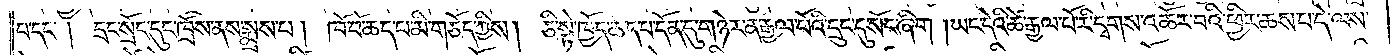པ་དང༌། དྲང་སྲོང་དུང་ཁྲོས་ནས་སྨྲས་པ། ཁོ་བོ་ཆད་པ་མི་གཅོད་ཀྱིས། ཅི་སྟེ་ཁྱོད་ཆད་པ་དོན་དུ་གཉེར་ན་རྒྱལ་པོའི་དྲུང་དུ་སོང་ཞིག །ཡང་དེའི་ཚེ་རྒྱལ་པོ་རི་དྭགས་འཆོར་བའི་ཕྱིར་ཆས་པ་དེ་ལས་
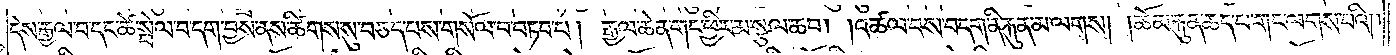དེས་རྒྱལ་བ་དང་ཚེ་སྤེལ་བདག་བྱས་ནས་ཚིགས་སུ་བཅད་པས་གསོལ་བ་བཏབ་པ། རྒྱལ་ཆེན་གང་ཕྱིར་མ་སྩལ་ཆབ། །འཚལ་བས་བདག་ནི་རྐུན་མ་ལགས། །ཆོམ་རྐུན་ཆད་པ་གང་ལགས་པའི༎
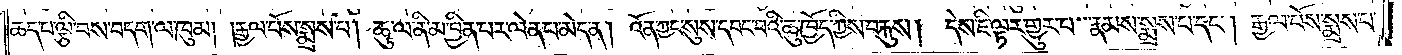ཆད་པ་ལྕི་བས་བདག་ལ་ཁུམ། །རྒྱལ་པོས་སྨྲས་པ། ཆུ་ལ་ནི་མ་བྱིན་པར་ལེན་པ་མེད་ན། འོན་ཀྱང་སུས་དབང་བའི་ཆུ་ཁྱོད་ཀྱིས་བརྐུས། དེས་ཇི་ལྟར་གྱུར་པ་རྣམས་སྨྲས་པ་དང༌། རྒྱལ་པོས་སྨྲས་པ་
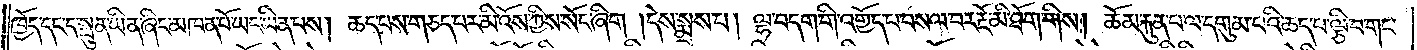ཁྱོད་དང་ང་སྤུན་ཡིན་ཞིང་མཁན་པོ་ཡང་ཡིན་པས། ཆད་པས་གཅད་པར་མི་འོས་ཀྱིས་སོང་ཞིག །དེས་སྨྲས་པ། ལྷ་བདག་གི་འགྱོད་པ་བསལ་བར་རྔོ་མི་ཐོག་གིས། ཆོམ་རྐུན་པ་ལ་དགུམ་པའི་ཆད་པ་ལྕི་བ་གང་
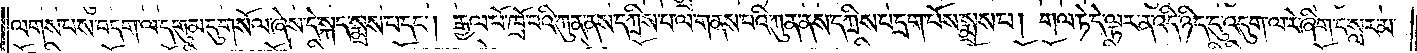ལགས་པས་བདག་ལ་དགུམ་དུ་གསོལ་ཞེས་དེ་སྐད་སྨྲས་པ་དང༌། རྒྱལ་པོ་ཁྲོ་བའི་ཀུན་ནས་དཀྲིས་པ་ལ་གནས་པའི་ཀུན་ནས་དཀྲིས་པ་དྲག་པོས་སྨྲས་པ། གལ་ཏེ་དེ་ལྟར་ན་འདི་ཉིད་དུ་འདུག་ལ་རེ་ཞིག་ང་སླར་མ་
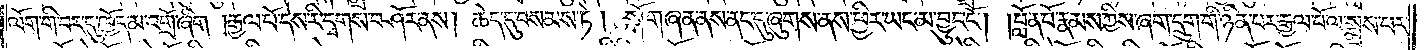ལོག་གི་བར་དུ་ཁྱོད་མ་འགྲོ་ཞིག །རྒྱལ་པོ་དེས་རི་དྭགས་བཤོར་ནས། ཆེད་དུ་བསམས་ཏེ། སྒོ་གཞན་ནས་ནང་དུ་ཞུགས་ནས་ཕྱིར་ཡང་མ་བྱུང་ངོ༌། །བློན་པོ་རྣམས་ཀྱིས་ཞག་དྲུག་གི་ཉིན་པར་རྒྱལ་པོ་ལ་སྨྲས་པར་
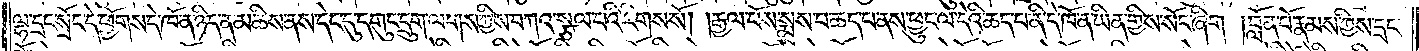ལྷ་དྲང་སྲོང་དེ་ཕྱོགས་དེ་ཁོ་ན་ཉིད་ན་མཆིས་ནས་དེང་དུ་དགུང་དྲུག་ལགས་ཀྱིས་བཀའ་སྩལ་པའི་རིགས་སོ། །རྒྱལ་པོས་སྨྲས་པ་ཆད་པ་ནས་ཕྱུང་ལ་དེའི་ཆད་པ་ནི་དེ་ཁོ་ན་ཡིན་གྱིས་སོང་ཞིག །བློན་པོ་རྣམས་ཀྱིས་དྲང་
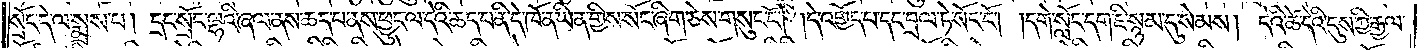སྲོང་དེ་ལ་སྨྲས་པ། དྲང་སྲོང་ལྷའི་ཞལ་ནས་ཆད་པ་ནས་ཕྱུང་ལ་དེའི་ཆད་པ་ནི་དེ་ཁོ་ན་ཡིན་གྱིས་སོང་ཞིག་ཅེས་གསུང་ངོ༌། །དེ་འགྱོད་པ་དང་བྲལ་ཏེ་སོང་ངོ༌། །དགེ་སློང་དག་ཇི་སྙམ་དུ་སེམས། དེའི་ཚེ་དེའི་དུས་ཀྱི་རྒྱལ་
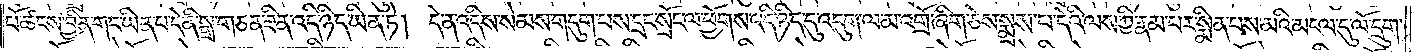པོ་ཚངས་བྱིན་གང་ཡིན་པ་དེ་ནི་སྒྲ་གཅན་ཟིན་འདི་ཉིད་ཡིན་ཏེ། དེ་ན་འདིས་སེམས་གདུག་པས་དྲང་སྲོང་ལ་ཕྱོགས་འདི་ཉིད་དུ་འདུག་ལ་མ་འགྲོ་ཞིག་ཅེས་སྨྲས་པ་དེའི་ལས་ཀྱི་རྣམ་པར་སྨིན་པས་མའི་མངལ་དུ་ལོ་དྲུག་
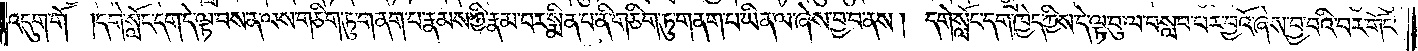འདུག་གོ །དགེ་སློང་དག་དེ་ལྟ་བས་ན་ལས་གཅིག་ཏུ་གནག་པ་རྣམས་ཀྱི་རྣམ་པར་སྨིན་པ་ནི་གཅིག་ཏུ་གནག་པ་ཡིན་ལ་ཞེས་བྱ་བ་ནས། དགེ་སློང་དག་ཁྱེད་ཀྱིས་དེ་ལྟ་བུ་ལ་བསླབ་པར་བྱའོ་ཞེས་བྱ་བའི་བར་གོང་
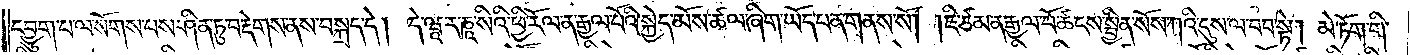དབྱུག་པ་ལ་སོགས་པས་ཤིན་ཏུ་བརྡེགས་ནས་བསྐྲད་དེ། དེ་ཝཱ་ར་ཎཱ་སིའི་ཕྱི་རོལ་ན་རྒྱལ་པོའི་སྐྱེད་མོས་ཚལ་ཞིག་ཡོད་པ་ན་གནས་སོ། །ཇི་ཙམ་ན་རྒྱལ་པོ་ཚངས་སྦྱིན་སོས་ཀའི་དུས་ལ་བབ་སྟེ། མེ་ཏོག་གི་
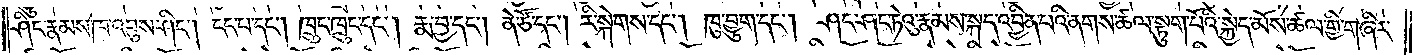ཤིང་རྣམས་ཁ་འབུས་ཤིང༌། ངང་པ་དང༌། ཁྲུང་ཁྲུང་དང༌། རྨ་བྱ་དང༌། ནེ་ཙོ་དང༌། རི་སྐེགས་དང༌། ཁུ་བྱུག་དང༌། ཤང་ཤང་ཏེའུ་རྣམས་སྐད་འབྱིན་པའི་ནགས་ཚལ་སྟུག་པོའི་སྐྱེད་མོས་ཚལ་གྱི་གཞིར་
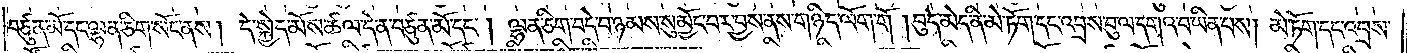བཙུན་མོ་དང་ལྷན་ཅིག་སོང་ནས། དེ་སྐྱེད་མོས་ཚལ་དེ་ན་བཙུན་མོ་དང༌། ལྷན་ཅིག་བདེ་བ་ཉམས་སུ་མྱོང་བར་བྱས་ནས་གཉིད་ལོག་གོ །བུད་མེད་ནི་མེ་ཏོག་དང་འབྲས་བུ་ལ་དགའ་བ་ཡིན་པས། མེ་ཏོག་དང་འབྲས་
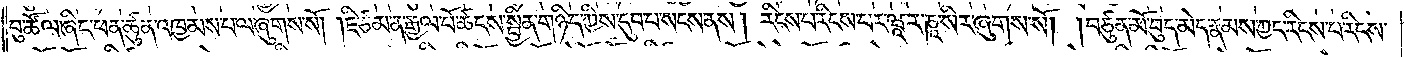བུ་ཚོལ་ཞིང་ཕན་ཚུན་འཁྱམས་པ་ལ་ཞུགས་སོ། །ཇི་ཙམ་ན་རྒྱལ་པོ་ཚངས་སྦྱིན་གཉིད་ཀྱིས་དུབ་པ་སངས་ནས། རིངས་པ་རིངས་པར་ཝཱ་ར་ཎཱ་སིར་ཞུགས་སོ། །བཙུན་མོ་བུད་མེད་རྣམས་ཀྱང་རིངས་པ་རིངས་
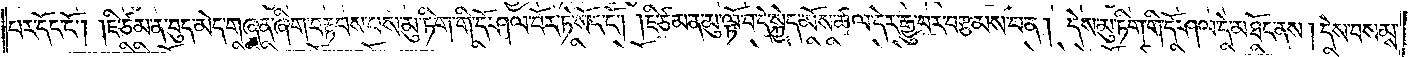པར་དོང་ངོ༌། །ཇི་ཙམ་ན་བུད་མེད་གཞན་ཞིག་བརྟབས་པས་མུ་ཏིག་གི་དོ་ཤལ་བོར་ཏེ་སོང་ངོ༌། །ཇི་ཙམ་ན་མུ་ལྟོ་བ་དེ་སྐྱེད་མོས་ཚལ་དེར་རྒྱུ་བར་བརྩམས་པ་ན། དེས་མུ་ཏིག་གི་དོ་ཤལ་དེ་མཐོང་ནས། དེས་བསམས་
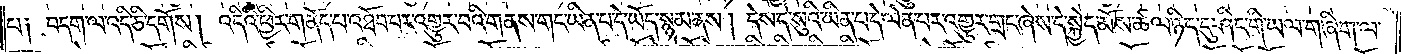པ། བདག་ལ་འདི་ཅི་དགོས། འདིའི་ཕྱིར་གནོད་པ་འཐོབ་པར་འགྱུར་བའི་གནས་གང་ཡིན་པ་དེ་ཡོད་སྙམ་ནས། དེས་དེ་སུའི་ཡིན་པ་དེ་ལེན་པར་འགྱུར་གྲང་ཞེས་དེ་སྐྱེད་མོས་ཚལ་ཉིད་དུ་ཤིང་གི་ཡལ་གཞིག་ལ་
